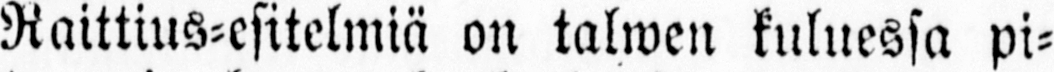Raittius-esitelmiä on talwen kuluessa pi-
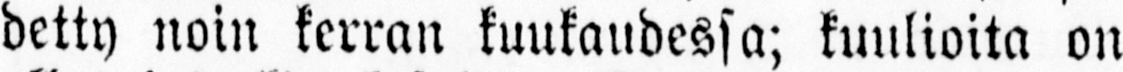detty noin kerran kuukaudessa; kuulioita on
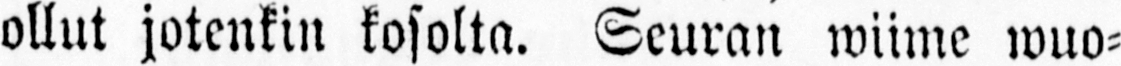ollut jotenkin kosolta. Seuran wiime wuo-
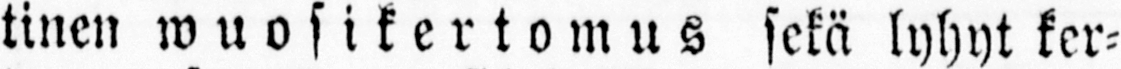tinen wuosikertotomus sekä lyhyt ker-
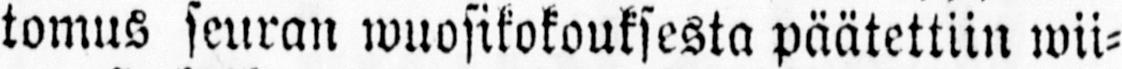tomus seuran päätettiin wii-
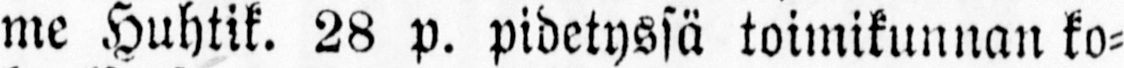me Huhtik. 28 p. pidetyssä toimikunnan ko-
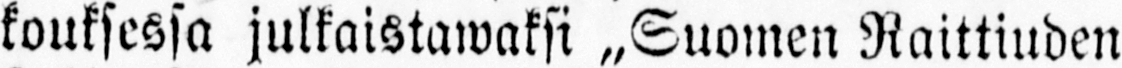kouksessa julkaistawaksi „Suomen Raittiuden
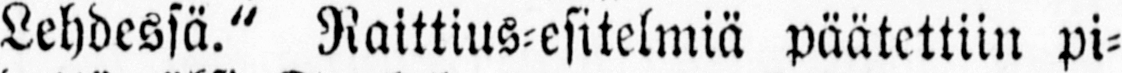Lehdessä." Raittius-esitelmiä päätettiin pi-
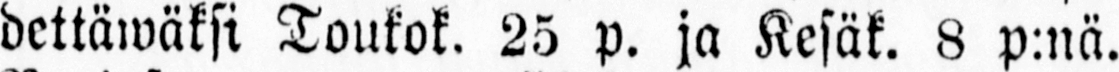dettäwäksi Toukok. 25 p. ja Kesäk. 8 p:nä.
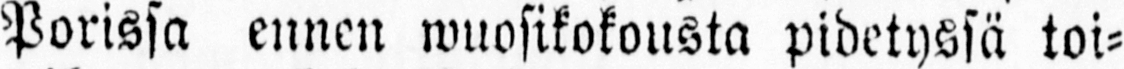Porissa ennen wuosikokousta pidetyssä toi-
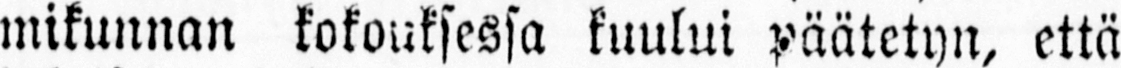mikunnan kokouksessa kuului päätetyn, että
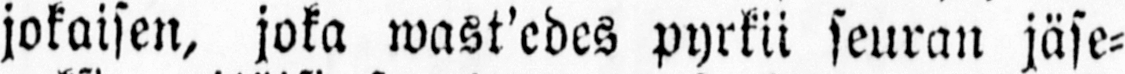jokaisen, joka wast'edes pyrkii seuran jäse-
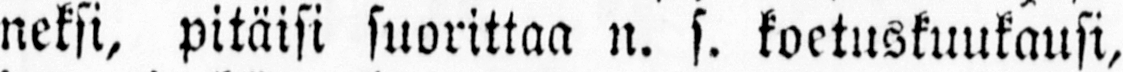neksi, pitäisi suorittaa n. s. koetuskuukausi,
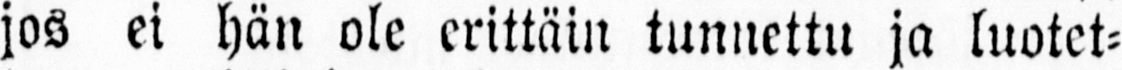jos ei hän ole erittäin tunnettu ja luotet-
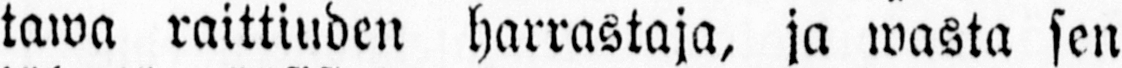tawa raittiuden harrastaja, ja wasta sen
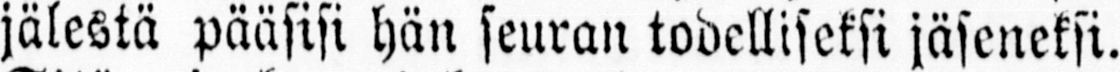jälestä pääsisi hän seuran todelliseksi jäseneksi.
